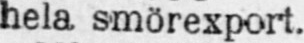hela smörexport.
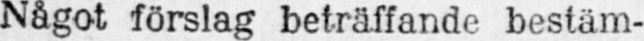Något förslag beträffande bestäm-
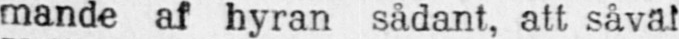mande af hyran sådant, att såvat
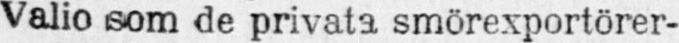Valio som de privata smörexportörer-
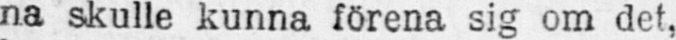na skulle kunna förena sig om det,
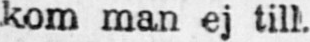kom man ej till.
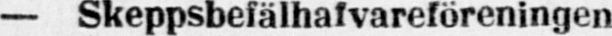— Skeppsbefälhafvareföreningen
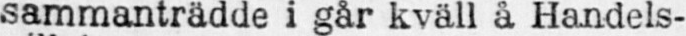sammanträdde i går kväll å Handels-
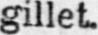gillet.
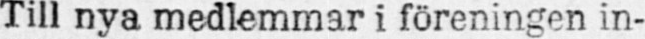Till nya medlemmar i föreningen in-
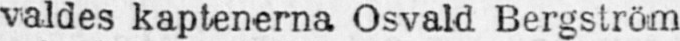valdes kaptenerna Osvald Bergström
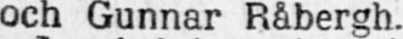och Gunnar Råbergh.
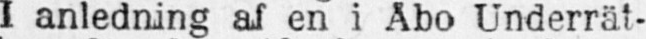I anledning af en i Åbo Underrät-
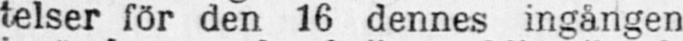telser för den 16 dennes ingången
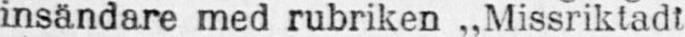insändare med rubriken „Missriktadt
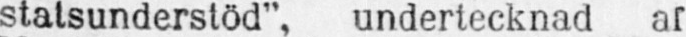statsunderstöd“, undertecknad af
